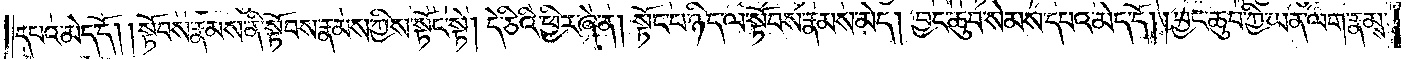དཔའ་མེད་དོ། །སྟོབས་རྣམས་ནི་སྟོབས་རྣམས་ཀྱིས་སྟོང་སྟེ། དེ་ཅིའི་ཕྱིར་ཞེ་ན། སྟོང་པ་ཉིད་ལ་སྟོབས་རྣམས་མེད། བྱང་ཆུབ་སེམས་དཔའ་མེད་དོ། །བྱང་ཆུབ་ཀྱི་ཡན་ལག་རྣམས་
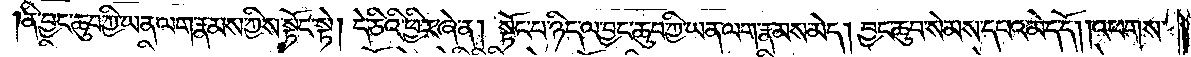ནི་བྱང་ཆུབ་ཀྱི་ཡན་ལག་རྣམས་ཀྱིས་སྟོང་སྟེ། དེ་ཅིའི་ཕྱིར་ཞེ་ན། སྟོང་པ་ཉིད་ལ་བྱང་ཆུབ་ཀྱི་ཡན་ལག་རྣམས་མེད། བྱང་ཆུབ་སེམས་དཔའ་མེད་དོ། །འཕགས་
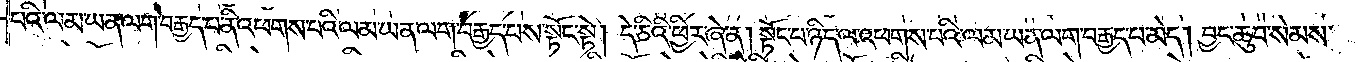པའི་ལམ་ཡན་ལག་བརྒྱད་པ་ནི་འཕགས་པའི་ལམ་ཡན་ལག་བརྒྱད་པས་སྟོང་སྟེ། དེ་ཅིའི་ཕྱིར་ཞེ་ན། སྟོང་པ་ཉིད་ལ་འཕགས་པའི་ལམ་ཡན་ལག་བརྒྱད་པ་མེད། བྱང་ཆུབ་སེམས་
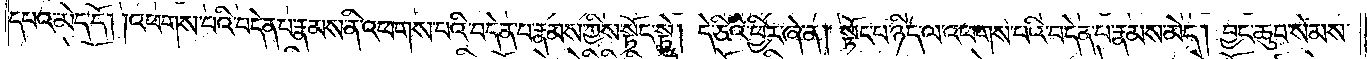དཔའ་མེད་དོ། །འཕགས་པའི་བདེན་པ་རྣམས་ནི་འཕགས་པའི་བདེན་པ་རྣམས་ཀྱིས་སྟོང་སྟེ། དེ་ཅིའི་ཕྱིར་ཞེ་ན། སྟོང་པ་ཉིད་ལ་འཕགས་པའི་བདེན་པ་རྣམས་མེད། བྱང་ཆུབ་སེམས་
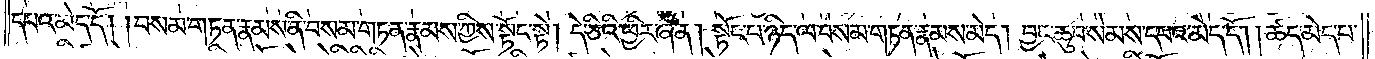དཔའ་མེད་དོ། །བསམ་གཏན་རྣམས་ནི་བསམ་གཏན་རྣམས་ཀྱིས་སྟོང་སྟེ། དེ་ཅིའི་ཕྱིར་ཞེ་ན། སྟོང་པ་ཉིད་ལ་བསམ་གཏན་རྣམས་མེད། བྱང་ཆུབ་སེམས་དཔའ་མེད་དོ། །ཚད་མེད་པ་
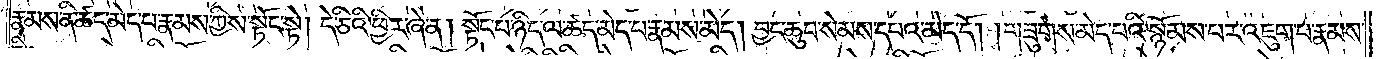རྣམས་ནི་ཚད་མེད་པ་རྣམས་ཀྱིས་སྟོང་སྟེ། དེ་ཅིའི་ཕྱིར་ཞེ་ན། སྟོང་པ་ཉིད་ལ་ཚད་མེད་པ་རྣམས་མེད། བྱང་ཆུབ་སེམས་དཔའ་མེད་དོ། །གཟུགས་མེད་པའི་སྙོམས་པར་འཇུག་པ་རྣམས་
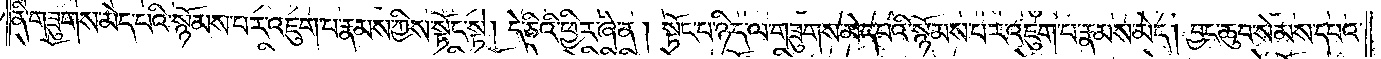ནི་གཟུགས་མེད་པའི་སྙོམས་པར་འཇུག་པ་རྣམས་ཀྱིས་སྟོང་སྟེ། དེ་ཅིའི་ཕྱིར་ཞེ་ན། སྟོང་པ་ཉིད་ལ་གཟུགས་མེད་པའི་སྙོམས་པར་འཇུག་པ་རྣམས་མེད། བྱང་ཆུབ་སེམས་དཔའ་
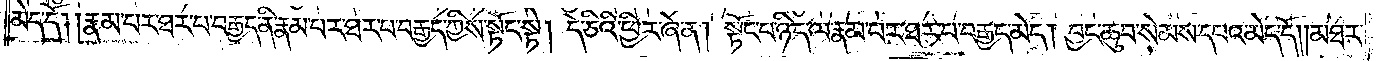མེད་དོ། །རྣམ་པར་ཐར་པ་བརྒྱད་ནི་རྣམ་པར་ཐར་པ་བརྒྱད་ཀྱིས་སྟོང་སྟེ། དེ་ཅིའི་ཕྱིར་ཞེ་ན། སྟོང་པ་ཉིད་ལ་རྣམ་པར་ཐར་པ་བརྒྱད་མེད། བྱང་ཆུབ་སེམས་དཔའ་མེད་དོ། །མཐར་
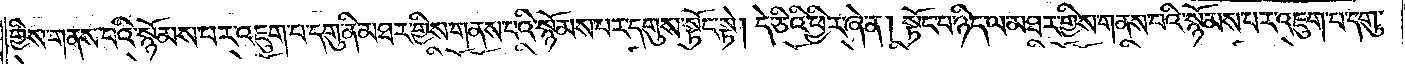གྱིས་གནས་པའི་སྙོམས་པར་འཇུག་པ་དགུ་ནི་མཐར་གྱིས་གནས་པའི་སྙོམས་པར་འཇུག་པ་དགུས་སྟོང་སྟེ། དེ་ཅིའི་ཕྱིར་ཞེ་ན། སྟོང་པ་ཉིད་ལ་མཐར་གྱིས་གནས་པའི་སྙོམས་པར་འཇུག་པ་དགུ་
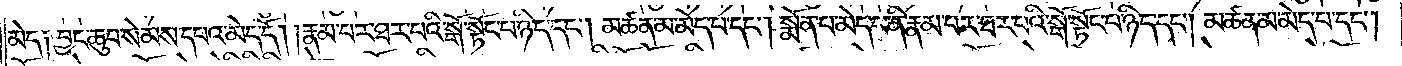མེད། བྱང་ཆུབ་སེམས་དཔའ་མེད་དོ། །རྣམ་པར་ཐར་པའི་སྒོ་སྟོང་པ་ཉིད་དང༌། མཚན་མ་མེད་པ་དང༌། སྨོན་པ་མེད་པ་ནི་རྣམ་པར་ཐར་པའི་སྒོ་སྟོང་པ་ཉིད་དང༌། མཚན་མ་མེད་པ་དང༌།
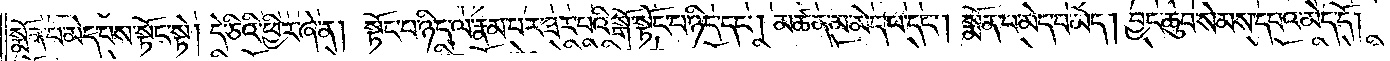སྨོན་པ་མེད་པས་སྟོང་སྟེ། དེ་ཅིའི་ཕྱིར་ཞེ་ན། སྟོང་པ་ཉིད་ལ་རྣམ་པར་ཐར་པའི་སྒོ་སྟོང་པ་ཉིད་དང༌། མཚན་མ་མེད་པ་དང༌། སྨོན་པ་མེད་པ་མེད། བྱང་ཆུབ་སེམས་དཔའ་མེད་དོ།
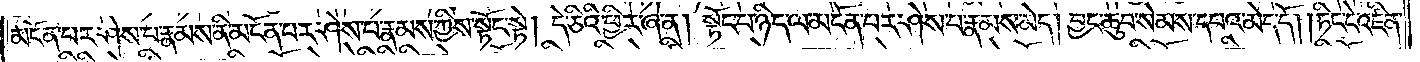མངོན་པར་ཤེས་པ་རྣམས་ནི་མངོན་པར་ཤེས་པ་རྣམས་ཀྱིས་སྟོང་སྟེ། དེ་ཅིའི་ཕྱིར་ཞེ་ན། སྟོང་པ་ཉིད་ལ་མངོན་པར་ཤེས་པ་རྣམས་མེད། བྱང་ཆུབ་སེམས་དཔའ་མེད་དོ། །ཏིང་ངེ་འཛིན་
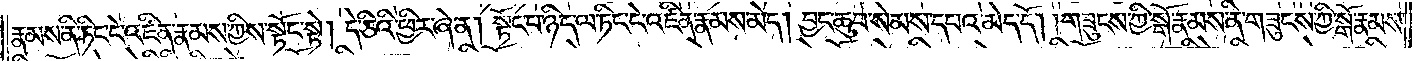རྣམས་ནི་ཏིང་ངེ་འཛིན་རྣམས་ཀྱིས་སྟོང་སྟེ། དེ་ཅིའི་ཕྱིར་ཞེ་ན། སྟོང་པ་ཉིད་ལ་ཏིང་ངེ་འཛིན་རྣམས་མེད། བྱང་ཆུབ་སེམས་དཔའ་མེད་དོ། །གཟུངས་ཀྱི་སྒོ་རྣམས་ནི་གཟུངས་ཀྱི་སྒོ་རྣམས་
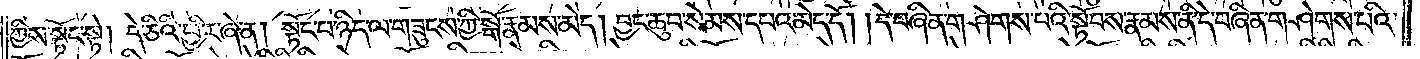ཀྱིས་སྟོང་སྟེ། དེ་ཅིའི་ཕྱིར་ཞེ་ན། སྟོང་པ་ཉིད་ལ་གཟུངས་ཀྱི་སྒོ་རྣམས་མེད། བྱང་ཆུབ་སེམས་དཔའ་མེད་དོ། །དེ་བཞིན་གཤེགས་པའི་སྟོབས་རྣམས་ནི་དེ་བཞིན་གཤེགས་པའི་
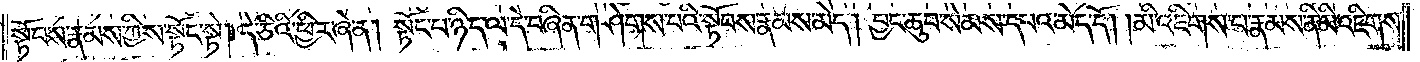སྟོབས་རྣམས་ཀྱིས་སྟོང་སྟེ། དེ་ཅིའི་ཕྱིར་ཞེ་ན། སྟོང་པ་ཉིད་ལ་དེ་བཞིན་གཤེགས་པའི་སྟོབས་རྣམས་མེད། བྱང་ཆུབ་སེམས་དཔའ་མེད་དོ། །མི་འཇིགས་པ་རྣམས་ནི་མི་འཇིགས་
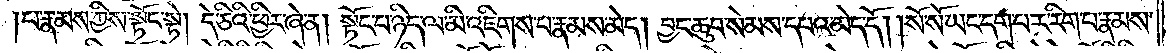པ་རྣམས་ཀྱིས་སྟོང་སྟེ། དེ་ཅིའི་ཕྱིར་ཞེ་ན། སྟོང་པ་ཉིད་ལ་མི་འཇིགས་པ་རྣམས་མེད། བྱང་ཆུབ་སེམས་དཔའ་མེད་དོ། །སོ་སོ་ཡང་དག་པར་རིག་པ་རྣམས་
